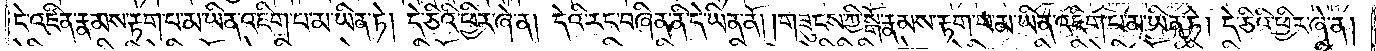ངེ་འཛིན་རྣམས་རྟག་པ་མ་ཡིན་འཇིག་པ་མ་ཡིན་ཏེ། དེ་ཅིའི་ཕྱིར་ཞེ་ན། དེའི་རང་བཞིན་ནི་དེ་ཡིན་ནོ། །གཟུངས་ཀྱི་སྒོ་རྣམས་རྟག་པ་མ་ཡིན་འཇིག་པ་མ་ཡིན་ཏེ། དེ་ཅིའི་ཕྱིར་ཞེ་ན།
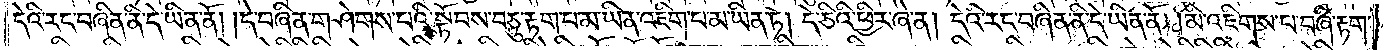དེའི་རང་བཞིན་ནི་དེ་ཡིན་ནོ། །དེ་བཞིན་གཤེགས་པའི་སྟོབས་བཅུ་རྟག་པ་མ་ཡིན་འཇིག་པ་མ་ཡིན་ཏེ། དེ་ཅིའི་ཕྱིར་ཞེ་ན། དེའི་རང་བཞིན་ནི་དེ་ཡིན་ནོ། མི་འཇིགས་པ་བཞི་རྟག་
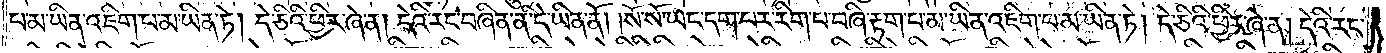པ་མ་ཡིན་འཇིག་པ་མ་ཡིན་ཏེ། དེ་ཅིའི་ཕྱིར་ཞེ་ན། དེའི་རང་བཞིན་ནི་དེ་ཡིན་ནོ། །སོ་སོ་ཡང་དག་པར་རིག་པ་བཞི་རྟག་པ་མ་ཡིན་འཇིག་པ་མ་ཡིན་ཏེ། དེ་ཅིའི་ཕྱིར་ཞེ་ན། དེའི་རང་
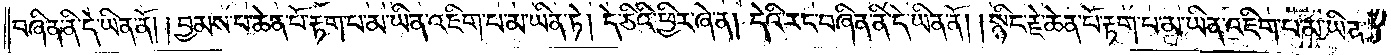བཞིན་ནི་དེ་ཡིན་ནོ། །བྱམས་པ་ཆེན་པོ་རྟག་པ་མ་ཡིན་འཇིག་པ་མ་ཡིན་ཏེ། དེ་ཅིའི་ཕྱིར་ཞེ་ན། དེའི་རང་བཞིན་ནི་དེ་ཡིན་ནོ། །སྙིང་རྗེ་ཆེན་པོ་རྟག་པ་མ་ཡིན་འཇིག་པ་མ་ཡིན་
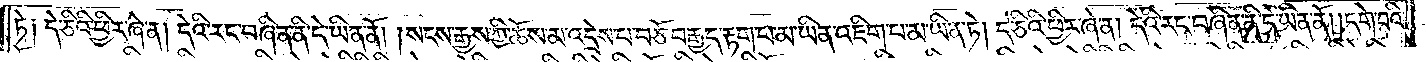ཏེ༑ དེ་ཅིའི་ཕྱིར་ཞེ་ན། དེའི་རང་བཞིན་ནི་དེ་ཡིན་ནོ། །སངས་རྒྱས་ཀྱི་ཆོས་མ་འདྲེས་པ་བཅོ་བརྒྱད་རྟག་པ་མ་ཡིན་འཇིག་པ་མ་ཡིན་ཏེ། དེ་ཅིའི་ཕྱིར་ཞེ་ན། དེའི་རང་བཞིན་ནི་དེ་ཡིན་ནོ། །དགེ་བའི་
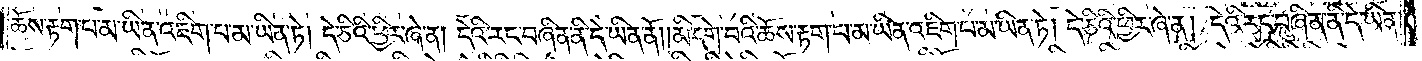ཆོས་རྟག་པ་མ་ཡིན་འཇིག་པ་མ་ཡིན་ཏེ། དེ་ཅིའི་ཕྱིར་ཞེ་ན། དེའི་རང་བཞིན་ནི་དེ་ཡིན་ནོ། །མི་དགེ་བའི་ཆོས་རྟག་པ་མ་ཡིན་འཇིག་པ་མ་ཡིན་ཏེ། དེ་ཅིའི་ཕྱིར་ཞེ་ན། དེའི་རང་བཞིན་ནི་དེ་ཡིན་
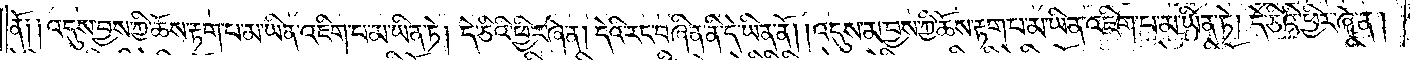ནོ༑ ༑འདུས་བྱས་ཀྱི་ཆོས་རྟག་པ་མ་ཡིན་འཇིག་པ་མ་ཡིན་ཏེ། དེ་ཅིའི་ཕྱིར་ཞེ་ན། དེའི་རང་བཞིན་ནི་དེ་ཡིན་ནོ། །འདུས་མ་བྱས་ཀྱི་ཆོས་རྟག་པ་མ་ཡིན་འཇིག་པ་མ་ཡིན་ཏེ། དེ་ཅིའི་ཕྱིར་ཞེ་ན།
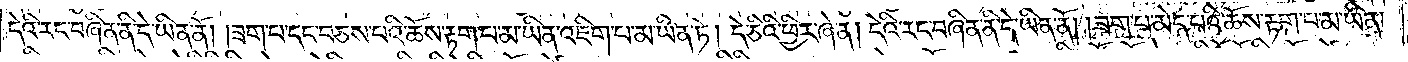དེའི་རང་བཞིན་ནི་དེ་ཡིན་ནོ། །ཟག་པ་དང་བཅས་པའི་ཆོས་རྟག་པ་མ་ཡིན་འཇིག་པ་མ་ཡིན་ཏེ། དེ་ཅིའི་ཕྱིར་ཞེ་ན། དེའི་རང་བཞིན་ནི་དེ་ཡིན་ནོ། །ཟག་པ་མེད་པའི་ཆོས་རྟག་པ་མ་ཡིན་
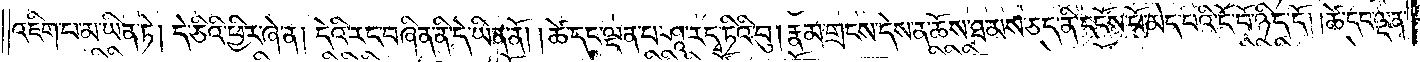འཇིག་པ་མ་ཡིན་ཏེ། དེ་ཅིའི་ཕྱིར་ཞེ་ན། དེའི་རང་བཞིན་ནི་དེ་ཡིན་ནོ། །ཚེ་དང་ལྡན་པ་ཤཱ་ར་དྭ་ཏིའི་བུ། རྣམ་གྲངས་དེས་ན་ཆོས་ཐམས་ཅད་ནི་དངོས་པོ་མེད་པའི་ངོ་བོ་ཉིད་དོ། །ཚེ་དང་ལྡན་
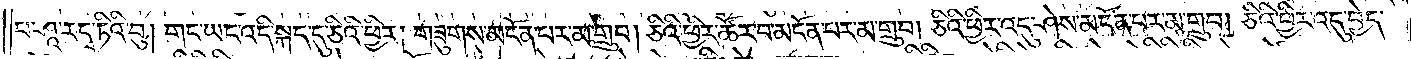པ་ཤཱ་ར་དྭ་ཏིའི་བུ། གང་ཡང་འདི་སྐད་དུ་ཅིའི་ཕྱིར། གཟུགས་མངོན་པར་མ་གྲུབ། ཅིའི་ཕྱིར་ཚོར་བ་མངོན་པར་མ་གྲུབ། ཅིའི་ཕྱིར་འདུ་ཤེས་མངོན་པར་མ་གྲུབ། ཅིའི་ཕྱིར་འདུ་བྱེད་
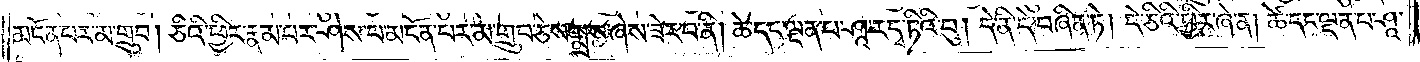མངོན་པར་མ་གྲུབ། ཅིའི་ཕྱིར་རྣམ་པར་ཤེས་པ་མངོན་པར་མ་གྲུབ་ཅེས་སྨྲས་ཞེས་ཟེར་བ་ནི། ཚེ་དང་ལྡན་པ་ཤཱ་ར་དྭ་ཏིའི་བུ། དེ་ནི་དེ་བཞིན་ཏེ། དེ་ཅིའི་ཕྱིར་ཞེ་ན། ཚེ་དང་ལྡན་པ་ཤཱ་
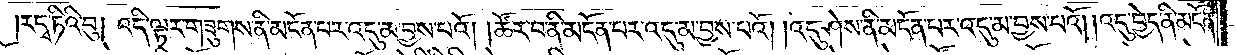ར་དྭ་ཏིའི་བུ། འདི་ལྟར་གཟུགས་ནི་མངོན་པར་འདུ་མ་བྱས་པའོ། །ཚོར་བ་ནི་མངོན་པར་འདུ་མ་བྱས་པའོ། །འདུ་ཤེས་ནི་མངོན་པར་འདུ་མ་བྱས་པའོ། །འདུ་བྱེད་ནི་མངོན་
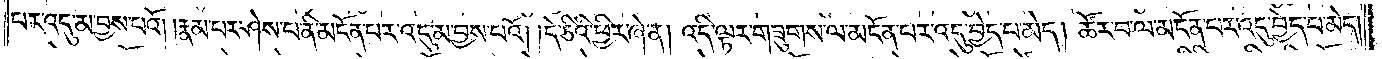པར་འདུ་མ་བྱས་པའོ། །རྣམ་པར་ཤེས་པ་ནི་མངོན་པར་འདུ་མ་བྱས་པའོ། །དེ་ཅིའི་ཕྱིར་ཞེ་ན། འདི་ལྟར་གཟུགས་ལ་མངོན་པར་འདུ་བྱེད་པ་མེད། ཚོར་བ་ལ་མངོན་པར་འདུ་བྱེད་པ་མེད།
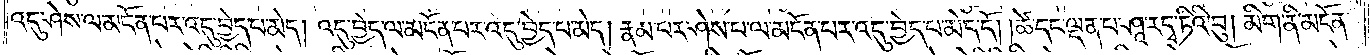འདུ་ཤེས་ལ་མངོན་པར་འདུ་བྱེད་པ་མེད། འདུ་བྱེད་ལ་མངོན་པར་འདུ་བྱེད་པ་མེད། རྣམ་པར་ཤེས་པ་ལ་མངོན་པར་འདུ་བྱེད་པ་མེད་དོ། །ཚེ་དང་ལྡན་པ་ཤཱ་ར་དྭ་ཏིའི་བུ། མིག་ནི་མངོན་
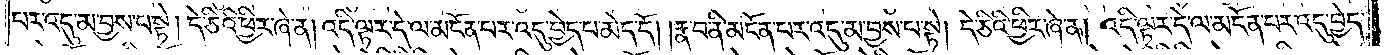པར་འདུ་མ་བྱས་པ་སྟེ། དེ་ཅིའི་ཕྱིར་ཞེ་ན། འདི་ལྟར་དེ་ལ་མངོན་པར་འདུ་བྱེད་པ་མེད་དོ། །རྣ་བ་ནི་མངོན་པར་འདུ་མ་བྱས་པ་སྟེ། དེ་ཅིའི་ཕྱིར་ཞེ་ན། འདི་ལྟར་དེ་ལ་མངོན་པར་འདུ་བྱེད་
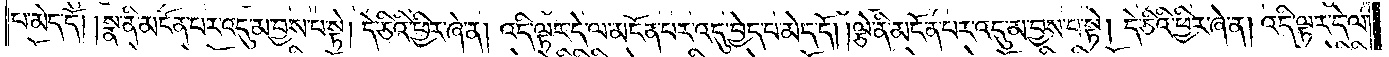པ་མེད་དོ། །སྣ་ནི་མངོན་པར་འདུ་མ་བྱས་པ་སྟེ། དེ་ཅིའི་ཕྱིར་ཞེ་ན། འདི་ལྟར་དེ་ལ་མངོན་པར་འདུ་བྱེད་པ་མེད་དོ། །ལྕེ་ནི་མངོན་པར་འདུ་མ་བྱས་པ་སྟེ། དེ་ཅིའི་ཕྱིར་ཞེ་ན། འདི་ལྟར་དེ་ལ་
